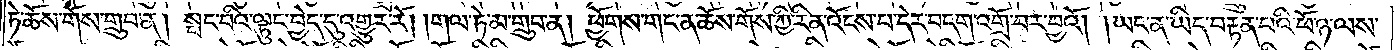ཏེ་ཆོས་གོས་གྲུབ་ན། སྤང་བའི་ལྟུང་བྱེད་དུ་འགྱུར་རོ། །གལ་ཏེ་མ་གྲུབ་ན། ཕྱོགས་གང་ན་ཆོས་གོས་ཀྱི་རིན་འོངས་པ་དེར་བདག་འགྲོ་བར་བྱའོ། །ཡང་ན་ཡིད་བརྟན་པའི་ཕོ་ཉ་ལས་
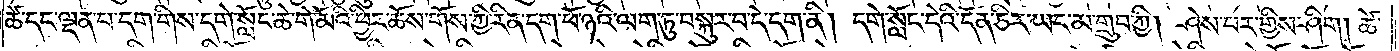ཚེ་དང་ལྡན་པ་དག་གིས་དགེ་སློང་ཆེ་གེ་མོའི་ཕྱིར་ཆོས་གོས་ཀྱི་རིན་དག་ཕོ་ཉའི་ལག་ཏུ་བསྐུར་བ་དེ་དག་ནི། དགེ་སློང་དེའི་དོན་ཅིར་ཡང་མ་གྲུབ་ཀྱི། ཤེས་པར་གྱིས་ཤིག། ཚེ་
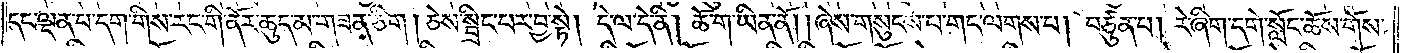དང་ལྡན་པ་དག་གིས་རང་གི་ནོར་ཆུད་མ་གཟན་ཅིག །ཅེས་སྤྲིང་པར་བྱ་སྟེ། དེ་ལ་དེ་ནི། ཆོ་ག་ཡིན་ནོ། །ཞེས་གསུངས་པ་གང་ལགས་པ། བཙུན་པ། རེ་ཞིག་དགེ་སློང་ཆོས་གོས་
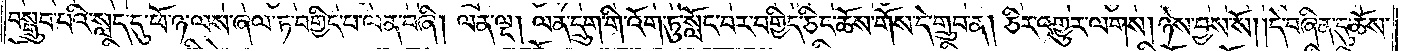བསྒྲུབ་པའི་སླད་དུ་ཕོ་ཉ་ལས་ཞལ་ཏ་བགྱིད་པ་ལན་བཞི། ལན་ལྔ། ལན་དྲུག་གི་འོག་ཏུ་སློང་བར་བགྱིད་ཅིང་ཆོས་གོས་དེ་གྲུབ་ན། ཅིར་འགྱུར་ལགས། ཉེས་བྱས་སོ། །དེ་བཞིན་དུ་ཆོས་
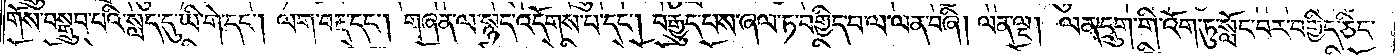གོས་བསྒྲུབ་པའི་སླད་དུ་ཡི་གེ་དང༌། ལག་བརྡ་དང༌། གཞན་ལ་སྙད་འདོགས་པ་དང༌། བརྒྱུད་པས་ཞལ་ཏ་བགྱིད་པ་ལ་ལན་བཞི། ལན་ལྔ། ལན་དྲུག་གི་འོག་ཏུ་སློང་བར་བགྱིད་ཅིང་
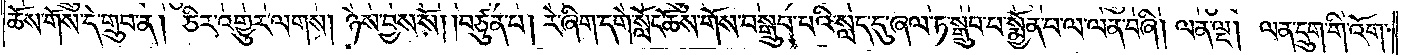ཆོས་གོས་དེ་གྲུབ་ན། ཅིར་འགྱུར་ལགས། ཉེས་བྱས་སོ། །བཙུན་པ། རེ་ཞིག་དགེ་སློང་ཆོས་གོས་བསྒྲུབ་པའི་སླད་དུ་ཞལ་ཏ་སྒྲུབ་པ་སྨྱོན་པ་ལ་ལན་བཞི། ལན་ལྔ། ལན་དྲུག་གི་འོག་
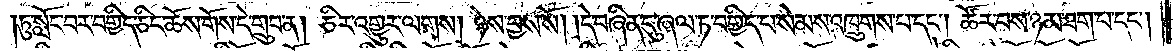།ཏུ་སློང་བར་བགྱིད་ཅིང་ཆོས་གོས་དེ་གྲུབ་ན། ཅིར་འགྱུར་ལགས། ཉེས་བྱས་སོ། །དེ་བཞིན་དུ་ཞལ་ཏ་བགྱིད་པ་སེམས་འཁྲུགས་པ་དང༌། ཚོར་བས་ཉམ་ཐག་པ་དང༌།
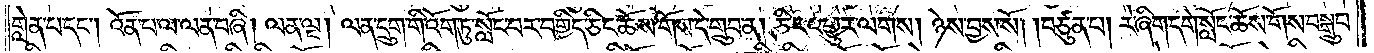གླེན་པ་དང༌། འོན་པ་ལ་ལན་བཞི། ལན་ལྔ། ལན་དྲུག་གི་འོག་ཏུ་སློང་བར་བགྱིད་ཅིང་ཆོས་གོས་དེ་གྲུབ་ན། ཅིར་འགྱུར་ལགས། ཉེས་བྱས་སོ། །བཙུན་པ། རེ་ཞིག་དགེ་སློང་ཆོས་གོས་བསྒྲུབ་
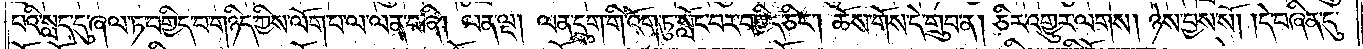པའི་སླད་དུ་ཞལ་ཏ་བགྱིད་བ་གཉིད་ཀྱིས་ལོག་པ་ལ་ལན་བཞི། ལན་ལྔ། ལན་དྲུག་གི་འོག་ཏུ་སློང་བར་བགྱིད་ཅིང༌། ཆོས་གོས་དེ་གྲུབ་ན། ཅིར་འགྱུར་ལགས། ཉེས་བྱས་སོ། །དེ་བཞིན་དུ་
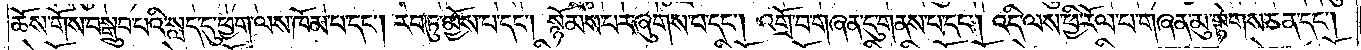ཆོས་གོས་བསྒྲུབ་པའི་སླད་དུ་ཕྱག་ལས་ཁོམ་པ་དང༌། རབ་ཏུ་མྱོས་པ་དང༌། སྙོམས་པར་ཞུགས་པ་དང༌། འགྲོ་བ་གཞན་དུ་གནས་པ་དང༌། འདི་ལས་ཕྱི་རོལ་པ་གཞན་མུ་སྟེགས་ཅན་དང༌།
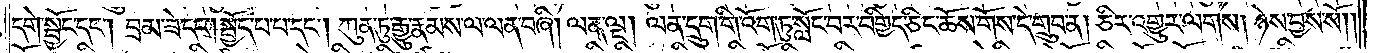དགེ་སྦྱོང་དང༌། བྲམ་ཟེ་དང༌། སྤྱོད་པ་བ་དང༌། ཀུན་ཏུ་རྒྱུ་རྣམས་ལ་ལན་བཞི། ལན་ལྔ། ལན་དྲུག་གི་འོག་ཏུ་སློང་བར་བགྱིད་ཅིང་ཆོས་གོས་དེ་གྲུབ་ན། ཅིར་འགྱུར་ལགས། ཉེས་བྱས་སོ། །
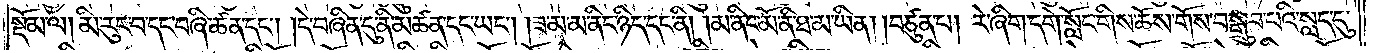སྡོམ་ལ། མི་རུང་བ་དང་བཞི་ཚན་དང༌། །དེ་བཞིན་དུ་ནི་མཚན་དང་ཡང༌། །ཟ་མ་མ་ནིང་ཉིད་དང་ནི། །མ་ནིང་མོ་ནི་ཐ་མ་ཡིན། །བཙུན་པ། རེ་ཞིག་དགེ་སློང་གིས་ཆོས་གོས་བསྒྲུབ་པའི་སླད་དུ་
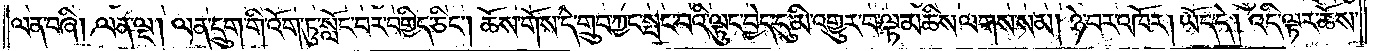ལན་བཞི། ལན་ལྔ། ལན་དྲུག་གི་འོག་ཏུ་སློང་བར་བགྱིད་ཅིང༌། ཆོས་གོས་དེ་གྲུབ་ཀྱང་སྤང་བའི་ལྟུང་བྱེད་དུ་མི་འགྱུར་བ་ལྟ་མཆིས་ལགས་སམ། ཉེ་བར་འཁོར། ཡོད་དེ། འདི་ལྟར་ཆོས་
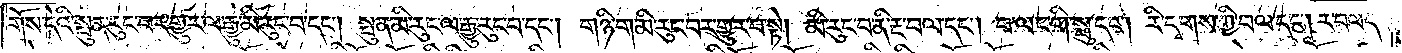གོས་དེའི་སྤུན་རུང་བར་གྱུར་ལ་རྒྱུ་མི་རུང་བ་དང༌། སྤུན་མི་རུང་ལ་རྒྱུ་རུང་བ་དང༌། གཉི་ག་མི་རུང་བར་གྱུར་བ་སྟེ། མི་རུང་བ་ནི་རྔ་བལ་དང༌། བ་ལང་གི་སྤུ་དང༌། རི་དྭགས་ཀྱི་བལ་དང༌། ར་བལ་དང་
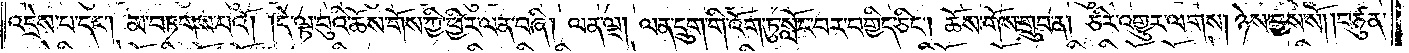འདྲེས་པ་དང༌། མ་བཏགས་པའོ། །དེ་ལྟ་བུའི་ཆོས་གོས་ཀྱི་ཕྱིར་ལན་བཞི། ལན་ལྔ། ལན་དྲུག་གི་འོག་ཏུ་སློང་བར་བགྱིད་ཅིང༌། ཆོས་གོས་གྲུབ་ན། ཅིར་འགྱུར་ལགས། ཉེས་བྱས་སོ། །བཙུན་
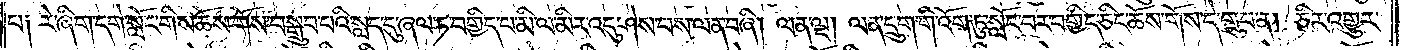པ༑ རེ་ཞིག་དགེ་སློང་གིས་ཆོས་གོས་བསྒྲུབ་པའི་སླད་དུ་ཞལ་ཏ་བགྱིད་པ་མི་ལ་མིར་འདུ་ཤེས་པས་ལན་བཞི། ལན་ལྔ། ལན་དྲུག་གི་འོག་ཏུ་སློང་བར་བགྱིད་ཅིང་ཆོས་གོས་དེ་གྲུབ་ན། ཅིར་འགྱུར་
